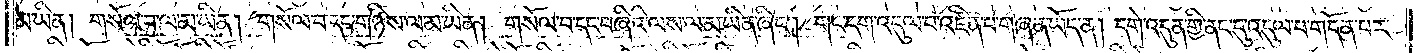མ་ཡིན། གསོལ་བ་ལ་མ་ཡིན། གསོལ་བ་དང་གཉིས་ལ་མ་ཡིན། གསོལ་བ་དང་བཞིའི་ལས་ལ་མ་ཡིན་ཞིང༌། གང་དག་འདུལ་བ་འཛིན་པ་གཞན་ཡོད་ན། དགེ་འདུན་གྱི་ནང་དུ་འདུལ་བ་གདོན་པར་
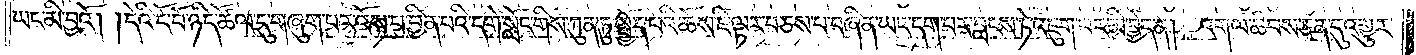ཡང་མི་བྱའོ། །དེའི་ངོ་བོ་ཉིད་ཚོལ་དུ་གཞུག་པར་འོས་པ་བྱིན་པའི་དགེ་སློང་གིས་ཀུན་ཏུ་སྤྱོད་པའི་ཆོས་ཇི་ལྟར་བཅས་པ་བཞིན་ཡང་དག་པར་བླངས་ཏེ་འཇུག་པར་མི་བྱེད་ན། འགལ་ཚབས་ཅན་དུ་འགྱུར་
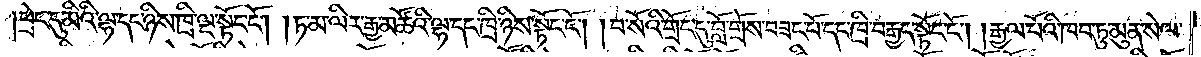ཕྲེང་དུ་མིའི་ལྷ་དང་ཉིས་ཁྲི་ལྔ་སྟོང་ངོ༌། །ཏམ་ལིར་རྒྱ་མཚོའི་ལྷ་དང་ཁྲི་ཉིས་སྟོང་ངོ༌། །བ་སོའི་གྲོང་དུ་བློ་གྲོས་བཟང་པོ་དང་ཁྲི་བརྒྱད་སྟོང་ངོ༌། །རྒྱལ་པོའི་ཁབ་ཏུ་མུན་སེལ་
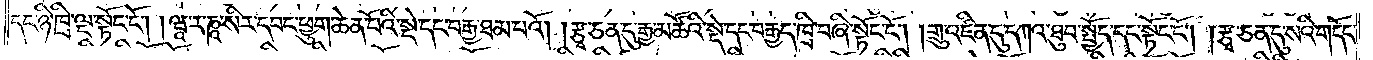དང་ཉི་ཁྲི་ལྔ་སྟོང་ངོ༌། །ཝཱ་ར་ཎཱ་སིར་དབང་ཕྱུག་ཆེན་པོའི་སྡེ་དང་བརྒྱ་ཐམ་པའོ། །རྩྭ་ཅན་དུ་རྒྱ་མཚོའི་སྡེ་དང་བརྒྱད་ཁྲི་བཞི་སྟོང་ངོ༌། །གྲུ་འཛིན་དུ་དཀའ་ཐུབ་སྤྱོད་དང་སྟོང་ངོ༌། །རྩྭ་ཅན་དུ་སའི་གདོང་
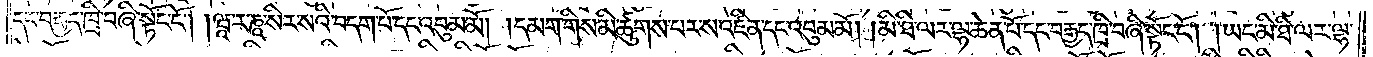དང་བརྒྱད་ཁྲི་བཞི་སྟོང་ངོ༌། །ཝཱ་ར་ཎཱ་སིར་སའི་བདག་པོ་དང་འབུམ་མོ། །དམག་གིས་མི་ཚུགས་པར་ས་འཛིན་དང་འབུམ་མོ། །མི་ཐི་ལར་ལྷ་ཆེན་པོ་དང་བརྒྱད་ཁྲི་བཞི་སྟོང་ངོ༌། །ཡང་མི་ཐི་ལར་ལྷ་
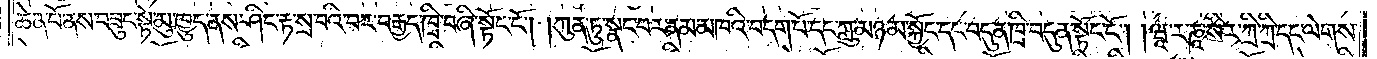ཆེན་པོ་ནས་བཟུང་སྟེ་མུ་ཁྱུད་ནས་ཤིང་རྟ་སྲ་བའི་བར་བརྒྱད་ཁྲི་བཞི་སྟོང་ངོ༌། །ཀུན་ཏུ་སྣང་བར་ནམ་མཁའི་བདག་པོ་དང་ཀླུ་མཉམ་སྐྱོང་དང་བདུན་ཁྲི་བདུན་སྟོང་ངོ༌། །ཝཱ་ར་ཎཱ་སིར་ཀྲི་ཀྲི་དང་ལེགས་
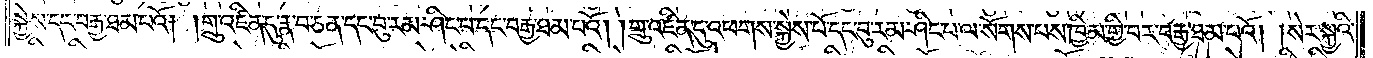སྐྱེས་དང་བརྒྱ་ཐམ་པའོ། །གྲུ་འཛིན་དུ་རྣ་བ་ཅན་དང་བུ་རམ་ཤིང་པ་དང་བརྒྱ་ཐམ་པའོ། །གྲུ་འཛིན་དུ་འཕགས་སྐྱེས་པོ་དང་བུ་རམ་ཤིང་པ་ལ་སོགས་པས་ཁྱིམ་གྱི་བར་བརྒྱ་ཐམ་པའོ། །སེར་སྐྱའི་
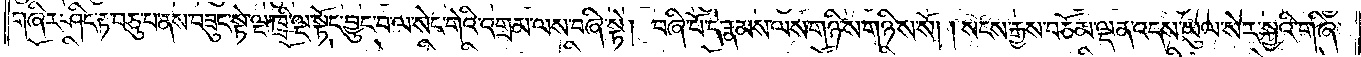གཞིར་ཤིང་རྟ་བཅུ་པ་ནས་བཟུང་སྟེ་ལྔ་ཁྲི་ལྔ་སྟོང་བྱུང་བ་ལ་སེང་གེའི་འགྲམ་ལས་བཞི་སྟེ། བཞི་པོ་དེ་རྣམས་ལས་གཉིས་གཉིས་སོ། །སངས་རྒྱས་བཅོམ་ལྡན་འདས་ཡུལ་སེར་སྐྱའི་གཞི་
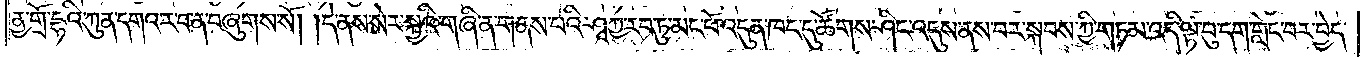ནྱ་གྲོ་དྷའི་ཀུན་དགའ་ར་བ་ན་བཞུགས་སོ། །དེ་ནས་སེར་སྐྱའི་གཞི་ན་གནས་པའི་ཤཱཀྱ་རབ་ཏུ་མང་པོ་འདུན་ཁང་དུ་ཚོགས་ཤིང་འདུས་ནས་བར་སྐབས་ཀྱི་གཏམ་འདི་ལྟ་བུ་དག་གླེང་བར་བྱེད་
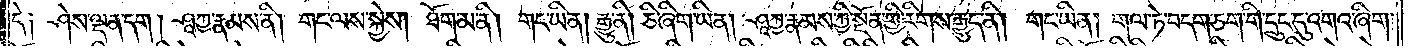དེ༑ ཤེས་ལྡན་དག །ཤཱཀྱ་རྣམས་ནི། གང་ལས་སྐྱེས། ཐོག་མ་ནི། གང་ཡིན། རྒྱུ་ནི། ཅི་ཞིག་ཡིན། ཤཱཀྱ་རྣམས་ཀྱི་སྔོན་གྱི་རིགས་རྒྱུད་ནི། གང་ཡིན། གལ་ཏེ་བདག་ཅག་གི་དྲུང་དུ་འགའ་ཞིག་
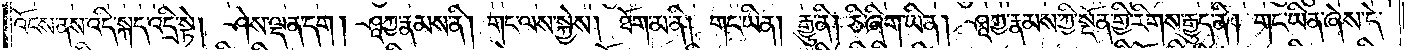འོངས་ནས་འདི་སྐད་འདྲི་སྟེ། ཤེས་ལྡན་དག །ཤཱཀྱ་རྣམས་ནི། གང་ལས་སྐྱེས། ཐོག་མ་ནི། གང་ཡིན། རྒྱུ་ནི། ཅི་ཞིག་ཡིན། ཤཱཀྱ་རྣམས་ཀྱི་སྔོན་གྱི་རིགས་རྒྱུད་ནི། གང་ཡིན་ཞེས་དེ་
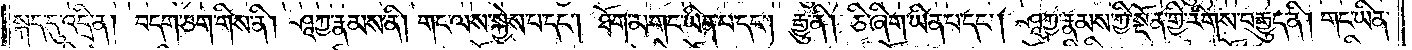སྐད་དུ་འདྲི་ན། བདག་ཅག་གིས་ནི། ཤཱཀྱ་རྣམས་ནི། གང་ལས་སྐྱེས་པ་དང༌། ཐོག་མ་གང་ཡིན་པ་དང༌། རྒྱུ་ནི། ཅི་ཞིག་ཡིན་པ་དང༌། ཤཱཀྱ་རྣམས་ཀྱི་སྔོན་གྱི་རིགས་བརྒྱུད་ནི། གང་ཡིན་
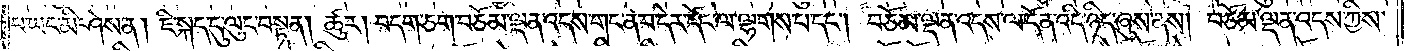པ་ཡང་མི་ཤེས་ན། ཇི་སྐད་དུ་ལུང་བསྟན། ཚུར། བདག་ཅག་བཅོམ་ལྡན་འདས་གང་ན་བ་དེར་དོང་ལ་ལྷགས་པ་དང༌། བཅོམ་ལྡན་འདས་ལ་དོན་འདི་ཉིད་ཞུས་ནས། བཅོམ་ལྡན་འདས་ཀྱིས་
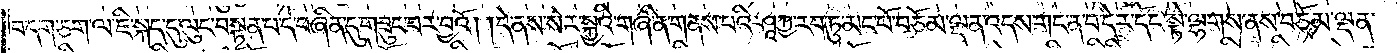བདག་ཅག་ལ་ཇི་སྐད་དུ་ལུང་བསྟན་པ་དེ་བཞིན་དུ་གཟུང་བར་བྱའོ། །དེ་ནས་སེར་སྐྱའི་གཞི་ན་གནས་པའི་ཤཱཀྱ་རབ་ཏུ་མང་པོ་བཅོམ་ལྡན་འདས་གང་ན་བ་དེར་དོང་སྟེ་ལྷགས་ནས་བཅོམ་ལྡན་
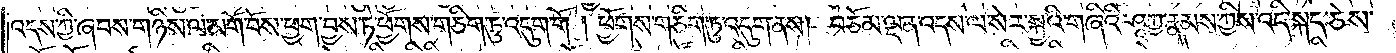འདས་ཀྱི་ཞབས་གཉིས་ལ་མགོ་བོས་ཕྱག་བྱས་ཏེ་ཕྱོགས་གཅིག་ཏུ་འདུག་གོ །ཕྱོགས་གཅིག་ཏུ་འདུག་ནས། བཅོམ་ལྡན་འདས་ལ་སེར་སྐྱའི་གཞིའི་ཤཱཀྱ་རྣམས་ཀྱིས་འདི་སྐད་ཅེས་
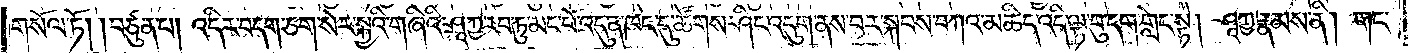གསོལ་ཏོ། །བཙུན་པ། འདིར་བདག་ཅག་སེར་སྐྱའི་གཞིའི་ཤཱཀྱ་རབ་ཏུ་མང་པོ་འདུན་ཁང་དུ་ཚོགས་ཤིང་འདུག་ནས་བར་སྐབས་བཀའ་མཆིད་འདི་ལྟ་བུ་དག་གླེང་སྟེ། ཤཱཀྱ་རྣམས་ནི། གང་
